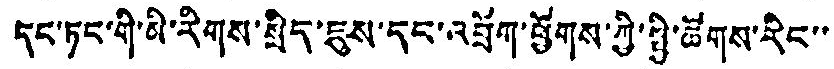དང་ཏང་གི་མི་རིགས་སྲིད་ཇུས་དང་འབྲོག་ཕྱོགས་ཀྱི་སྤྱི་ཚོགས་རིང་་
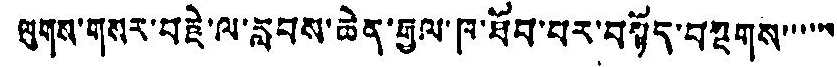ལུགས་གསར་བརྗེ་ལ་རླབས་ཆེན་རྒྱལ་ཁ་ཐོབ་པར་བསྟོད་བསྔགས་་་་་་
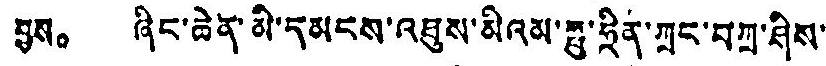བྱས。 ཞིང་ཆེན་མི་དམངས་འཐུས་མིའམ་ཧྥུ་ཧྲིན་ཀྲང་བཀྲ་ཤིས་་
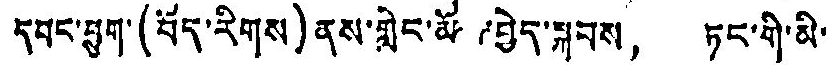དབང་ཕྱུག་(བོད་རིགས) ནས་གླིང་མོབྱེད་སྐབས， ཏང་གི་མི་
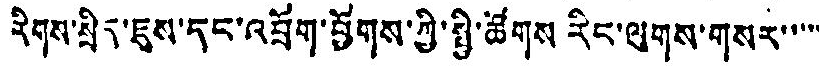རིགས་སྲིད་ཇུས་དང་འབྲོག་ཕྱོགས་ཀྱི་སྤྱི་ཚོགས རིང་ལུགས་གསར་་་་་་
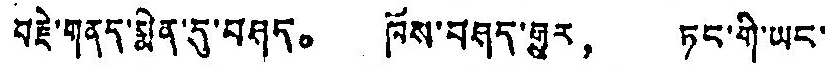བརྗེ་གནད་སྨིན་དུ་བཤད。 ཁོས་བཤད་རྒྱུར， ཏང་གི་ཡང་
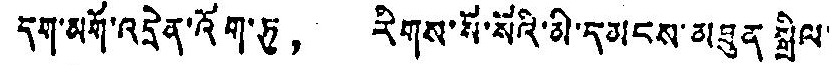དག་མགོ་འདྲེན་འོག་ཏུ， རིགས་སོ་སོའི་མི་དམངས་མཐུན སྒྲིལ་
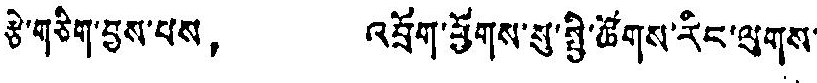རྩེ་གཅིག་བྱས་པས， འབྲོག་ཕྱོགས་སུ་སྤྱི་ཚོགས་རིང་ལུགས་
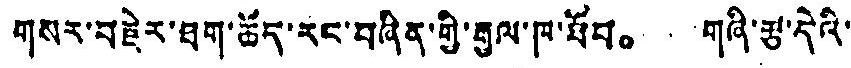གསར་བརྗེར་ཐག་ཆོད་རང་བཞིན་གྱི་རྒྱལ་ཁ་ཐོབ。 གཞི་རྩ་དེའི་
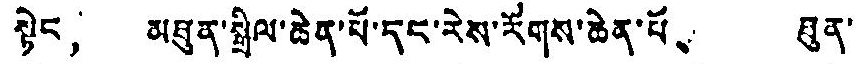སྟེང， མཐུན་སྒྲིལ་ཆེན་པོ་དང་རེས་རོགས་ཆེན་པོ、 ཐུན་
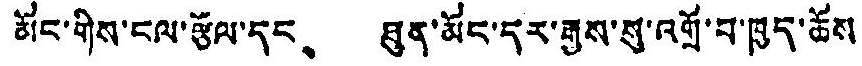མོང་གིས་ངལ་རྩོལ་དང、 ཐུན་མོང་དར་རྒྱས་སུ་འགྲོ་བ་ཁྱད་ཆོས་
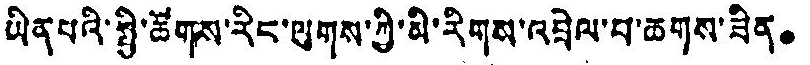ཡིན་པའི་སྤྱི་ཚོགས་རིང་ལུགས་ཀྱི་མི་རིགས་འབྲེལ་བ་ཆགས་ཟིན。
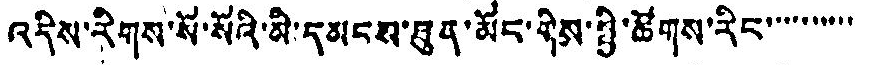འདིས་རིགས་སོ་སོའི་མི་དམངས་ཐུན་མོང་གིས་སྤྱི་ཚོགས་རིང་་་་་་་་་་
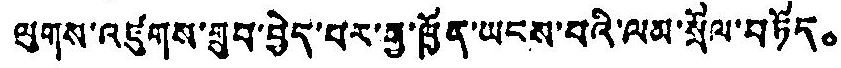ལུགས་འཛུགས་གྲུབ་བྱེད་པར་རྒྱ་ཁྱོན་ཡངས་པའི་ལམ་སྲོལ་བཏོད。
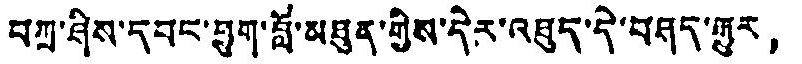བཀྲ་ཤིས་དབང་ཕྱུག་བློ་མཐུན་གྱིས་དེར་འཐུད་དེ་བཤད་གྱུར，
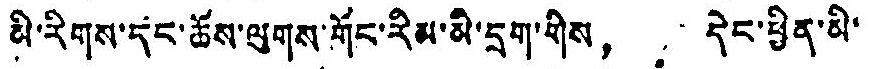མི་རིགས་དང་ཆོས་ལུགས་གོང་རིམ་མི་དྲག་གིས， དེང་ཕྱིན་མི་
